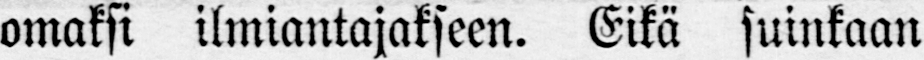omaksi ilmiantajakseen. Eikä suinkaan
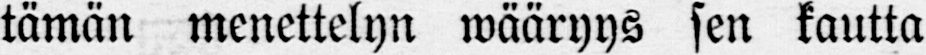tämän menettelyn wääryys sen kautta
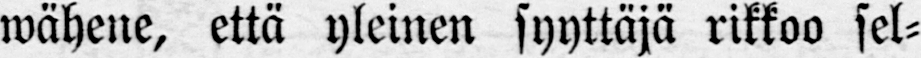wähene, että yleinen syyttäjä rikkoo sel-
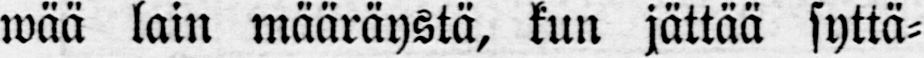wää lain määräystä, kun jättää syttä-
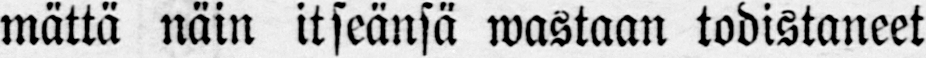mättä näin itseänsä wastaan todistaneet
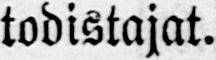todistajat.
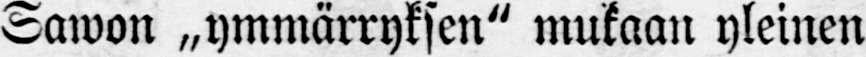Sawon „ ymmärryksen" mukaan yleinen
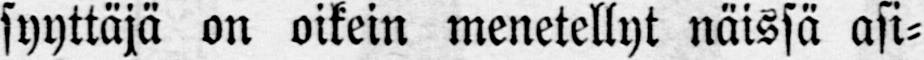syyttäjä on oikein menetellyt näissä asi-
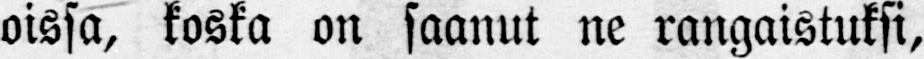oissa, koska on saanut ne rangaistuksi,
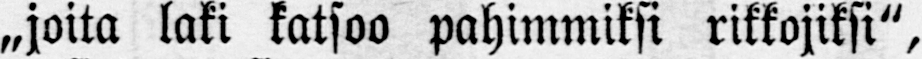„joita laki katsoo pahimmiksi rikkojiksi",
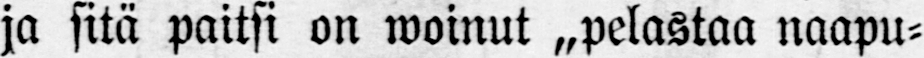ja sitä paitsi on woinut „pelastaa naapu-
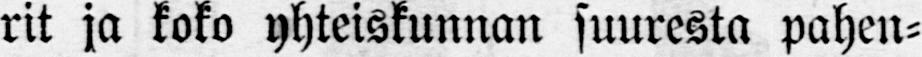rit ja koko yhteiskunnan suuresta pahen-
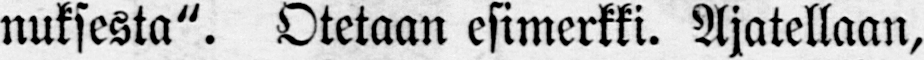nuksesta". Otetaan esimerkki. Ajatellaan,
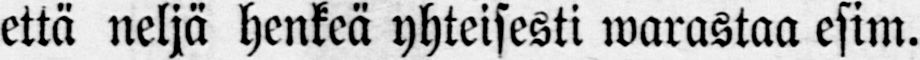että neljä henkeä yhteisesti warastaa esim.
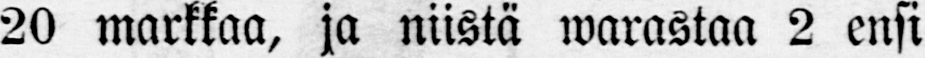20 markkaa, ja niistä warastaa 2 ensi
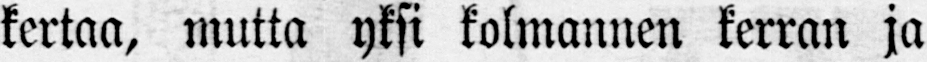kertaa, mutta yksi kolmannen kerran ja
